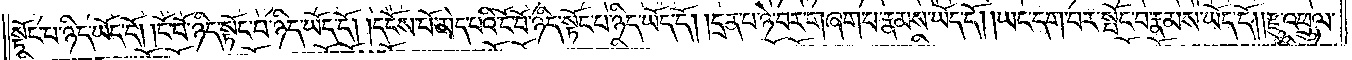སྟོང་པ་ཉིད་ཡོད་དོ། །ངོ་བོ་ཉིད་སྟོང་པ་ཉིད་ཡོད་དོ། །དངོས་པོ་མེད་པའི་ངོ་བོ་ཉིད་སྟོང་པ་ཉིད་ཡོད་དོ། །དྲན་པ་ཉེ་བར་གཞག་པ་རྣམས་ཡོད་དོ། །ཡང་དག་པར་སྤོང་བ་རྣམས་ཡོད་དོ། །རྫུ་འཕྲུལ་
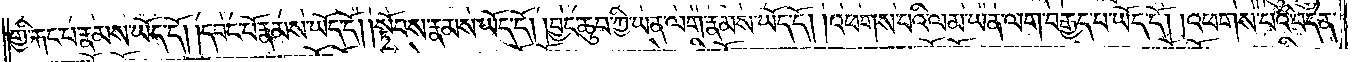གྱི་རྐང་པ་རྣམས་ཡོད་དོ། །དབང་པོ་རྣམས་ཡོད་དོ། །སྟོབས་རྣམས་ཡོད་དོ། །བྱང་ཆུབ་ཀྱི་ཡན་ལག་རྣམས་ཡོད་དོ། །འཕགས་པའི་ལམ་ཡན་ལག་བརྒྱད་པ་ཡོད་དོ། །འཕགས་པའི་བདེན་
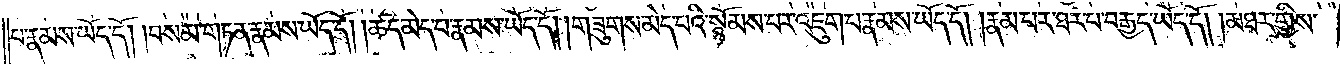པ་རྣམས་ཡོད་དོ། །བསམ་གཏན་རྣམས་ཡོད་དོ། །ཚད་མེད་པ་རྣམས་ཡོད་དོ། །གཟུགས་མེད་པའི་སྙོམས་པར་འཇུག་པ་རྣམས་ཡོད་དོ། །རྣམ་པར་ཐར་པ་བརྒྱད་ཡོད་དོ། །མཐར་གྱིས་
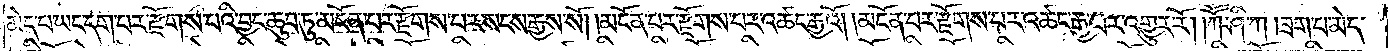མེད་པ་ཡང་དག་པར་རྫོགས་པའི་བྱང་ཆུབ་ཏུ་མངོན་པར་རྫོགས་པར་སངས་རྒྱས་སོ། །མངོན་པར་རྫོགས་པར་འཚང་རྒྱའོ། །མངོན་པར་རྫོགས་པར་འཚང་རྒྱ་བར་འགྱུར་རོ། །ཀཽ་ཤི་ཀ །ཟག་པ་མེད་
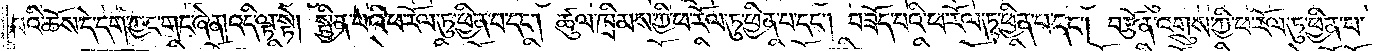པའི་ཆོས་དེ་དག་ཀྱང་གང་ཞེ་ན་འདི་ལྟ་སྟེ། སྦྱིན་པའི་ཕ་རོལ་ཏུ་ཕྱིན་པ་དང༌། ཚུལ་ཁྲིམས་ཀྱི་ཕ་རོལ་ཏུ་ཕྱིན་པ་དང༌། བཟོད་པའི་ཕ་རོལ་ཏུ་ཕྱིན་པ་དང༌། བརྩོན་འགྲུས་ཀྱི་ཕ་རོལ་ཏུ་ཕྱིན་པ་
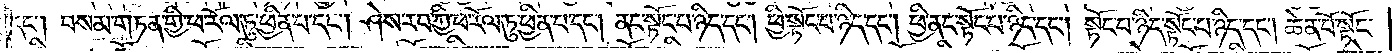དང༌། བསམ་གཏན་གྱི་ཕ་རོལ་ཏུ་ཕྱིན་པ་དང༌། ཤེས་རབ་ཀྱི་ཕ་རོལ་ཏུ་ཕྱིན་པ་དང༌། ནང་སྟོང་པ་ཉིད་དང༌། ཕྱི་སྟོང་པ་ཉིད་དང༌། ཕྱི་ནང་སྟོང་པ་ཉིད་དང༌། སྟོང་པ་ཉིད་སྟོང་པ་ཉིད་དང༌། ཆེན་པོ་སྟོང་
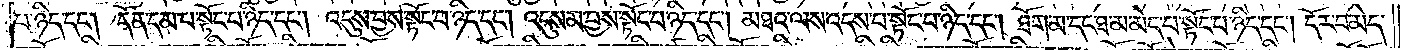པ་ཉིད་དང༌། དོན་དམ་པ་སྟོང་པ་ཉིད་དང༌། འདུས་བྱས་སྟོང་པ་ཉིད་དང༌། འདུས་མ་བྱས་སྟོང་པ་ཉིད་དང༌། མཐའ་ལས་འདས་པ་སྟོང་པ་ཉིད་དང༌། ཐོག་མ་དང་ཐ་མ་མེད་པ་སྟོང་པ་ཉིད་དང༌། དོར་བ་མེད་
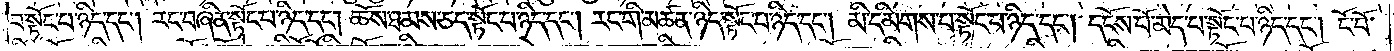པ་སྟོང་པ་ཉིད་དང༌། རང་བཞིན་སྟོང་པ་ཉིད་དང༌། ཆོས་ཐམས་ཅད་སྟོང་པ་ཉིད་དང༌། རང་གི་མཚན་ཉིད་སྟོང་པ་ཉིད་དང༌། མི་དམིགས་པ་སྟོང་པ་ཉིད་དང༌། དངོས་པོ་མེད་པ་སྟོང་པ་ཉིད་དང༌། ངོ་བོ་
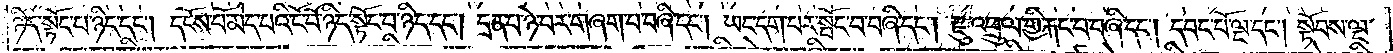ཉིད་སྟོང་པ་ཉིད་དང༌། དངོས་པོ་མེད་པའི་ངོ་བོ་ཉིད་སྟོང་པ་ཉིད་དང༌། དྲན་པ་ཉེ་བར་གཞག་པ་བཞི་དང༌། ཡང་དག་པར་སྤོང་བ་བཞི་དང༌། རྫུ་འཕྲུལ་གྱི་རྐང་པ་བཞི་དང༌། དབང་པོ་ལྔ་དང༌། སྟོབས་ལྔ་
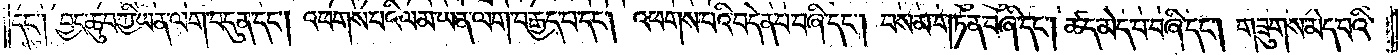དང༌། བྱང་ཆུབ་ཀྱི་ཡན་ལག་བདུན་དང༌། འཕགས་པའི་ལམ་ཡན་ལག་བརྒྱད་པ་དང༌། འཕགས་པའི་བདེན་པ་བཞི་དང༌། བསམ་གཏན་བཞི་དང༌། ཚད་མེད་པ་བཞི་དང༌། གཟུགས་མེད་པའི་
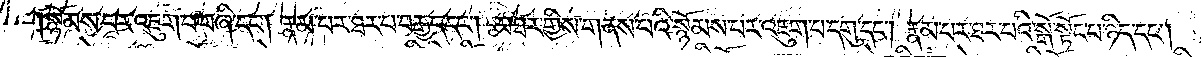སྙོམས་པར་འཇུག་པ་བཞི་དང༌། རྣམ་པར་ཐར་པ་བརྒྱད་དང༌། མཐར་གྱིས་གནས་པའི་སྙོམས་པར་འཇུག་པ་དགུ་དང༌། རྣམ་པར་ཐར་པའི་སྒོ་སྟོང་པ་ཉིད་དང༌།
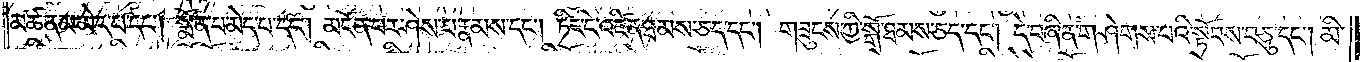མཚན་མ་མེད་པ་དང༌། སྨོན་པ་མེད་པ་དང༌། མངོན་པར་ཤེས་པ་རྣམས་དང༌། ཏིང་ངེ་འཛིན་ཐམས་ཅད་དང༌། གཟུངས་ཀྱི་སྒོ་ཐམས་ཅད་དང༌། དེ་བཞིན་གཤེགས་པའི་སྟོབས་བཅུ་དང༌། མི་
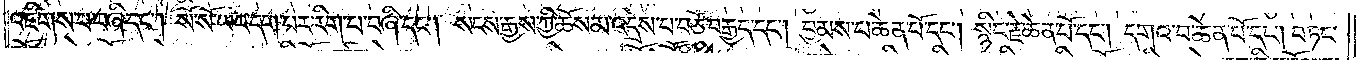འཇིགས་པ་བཞི་དང༌། སོ་སོ་ཡང་དག་པར་རིགས་བཞི་དང༌། སངས་རྒྱས་ཀྱི་ཆོས་མ་འདྲེས་པ་བཅོ་བརྒྱད་དང༌། བྱམས་པ་ཆེན་པོ་དང༌། སྙིང་རྗེ་ཆེན་པོ་དང༌། དགའ་བ་ཆེན་པོ་དང༌། བཏང་
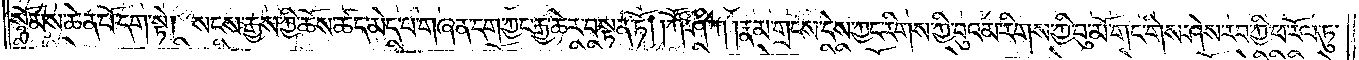སྙོམས་ཆེན་པོ་དག་སྟེ། སངས་རྒྱས་ཀྱི་ཆོས་ཚད་མེད་པ་གཞན་དག་ཀྱང་རྒྱ་ཆེར་བསྟན་ཏོ། །ཀཽ་ཤི་ཀ །རྣམ་གྲངས་དེས་ཀྱང་རིགས་ཀྱི་བུའམ་རིགས་ཀྱི་བུ་མོ་གང་གིས་ཤེས་རབ་ཀྱི་ཕ་རོལ་ཏུ་
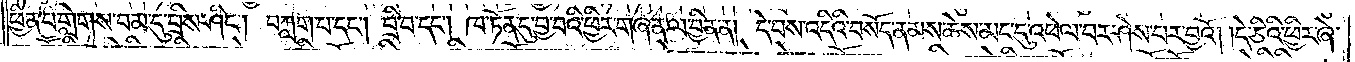ཕྱིན་པ་གླེགས་བམ་དུ་བྲིས་ཤིང༌། བཀླག་པ་དང༌། བྲི་བ་དང༌། ཁ་ཏོན་དུ་བྱ་བའི་ཕྱིར་གཞན་ལ་བྱིན་ན། དེ་བས་འདིའི་བསོད་ནམས་ཆེས་མེད་དུ་འཕེལ་བར་ཤེས་པར་བྱའོ། །དེ་ཅིའི་ཕྱིར་ཞེ་
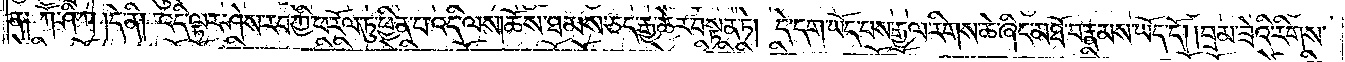ན། ཀཽ་ཤི་ཀ །དེ་ནི། འདི་ལྟར་ཤེས་རབ་ཀྱི་ཕ་རོལ་ཏུ་ཕྱིན་པ་འདི་ལས། ཆོས་ཐམས་ཅད་རྒྱ་ཆེར་བསྟན་ཏེ། དེ་དག་ཡོད་པས་རྒྱལ་རིགས་ཆེ་ཞིང་མ་ཐོབ་རྣམས་ཡོད་དོ། །བྲམ་ཟེའི་རིགས་
